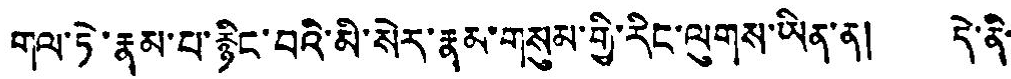གལ་ཏེ་རྣམ་པ་རྙིང་བའི་མི་སེར་རྣམ་གསུམ་གྱི་རིང་ལུགས་ཡིན་ན། དེ་ནི་
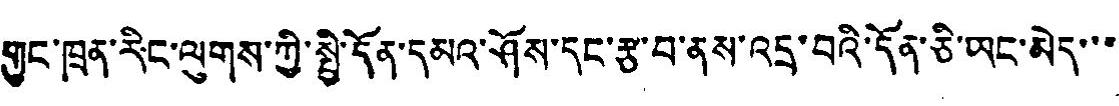གུང་ཁྲན་རིང་ལུསྒ་ཀྱི་སྤྱི་དོན་དམའ་ཤོས་དང་རྩ་བ་ནས་འདྲ་བའི་དོན་ཅི་ཡང་མེད་་་
